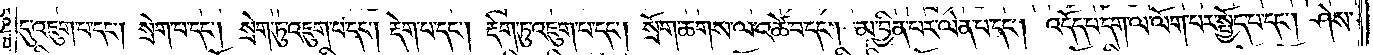དུ་འཇུག་པ་དང༌། སྲེག་པ་དང༌། སྲེག་ཏུ་འཇུག་པ་དང༌། རྡེག་པ་དང༌། རྡེག་ཏུ་འཇུག་པ་དང༌། སྲོག་ཆགས་ལ་འཚེ་བ་དང༌། མ་བྱིན་པར་ལེན་པ་དང༌། འདོད་པ་དག་ལ་ལོག་པར་སྤྱོད་པ་དང༌། ཤེས་
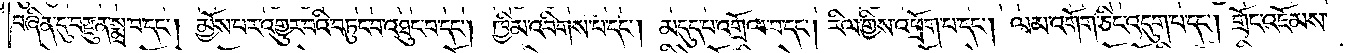བཞིན་དུ་བརྫུན་སྨྲ་བ་དང༌། མྱོས་པར་འགྱུར་བའི་བཏུང་བ་འཐུང་བ་དང༌། ཁྱིམ་འབིགས་པ་དང༌། མདུད་པ་འགྲོལ་བ་དང༌། རིལ་གྱིས་འཕྲོག་པ་དང༌། ལམ་འགོག་ཅིང་འདུག་པ་དང༌། གྲོང་འཇོམས་
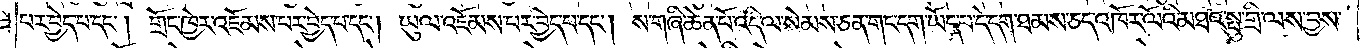པར་བྱེད་པ་དང༌། གྲོང་ཁྱེར་འཇོམས་པར་བྱེད་པ་དང༌། ཡུལ་འཇོམས་པར་བྱེད་པ་དང༌། ས་གཞི་ཆེན་པོ་འདི་ལ་སེམས་ཅན་གང་དག་ཡོད་པ་དེ་དག་ཐམས་ཅད་འཁོར་ལོའི་མཐའ་སྤུ་གྲི་ལས་བྱས་
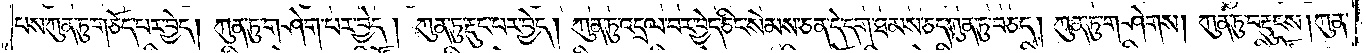པས་ཀུན་ཏུ་གཅོད་པར་བྱེད། ཀུན་ཏུ་གཤེག་པར་བྱེད། ཀུན་ཏུ་རྡུང་པར་བྱེད། ཀུན་ཏུ་འདྲལ་བར་བྱེད་ཅིང་སེམས་ཅན་དེ་དག་ཐམས་ཅད་ཀུན་ཏུ་བཅད། ཀུན་ཏུ་གཤེགས། ཀུན་ཏུ་བརྡུངས། ཀུན་
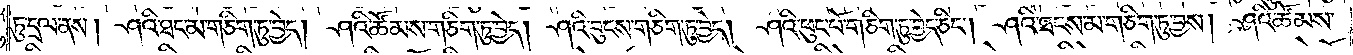ཏུ་དྲལ་ནས། ཤའི་ཐང་མ་གཅིག་ཏུ་བྱེད། ཤའི་ཚོམས་གཅིག་ཏུ་བྱེད། ཤའི་བུངས་གཅིག་ཏུ་བྱེད། ཤའི་ཕུང་པོ་གཅིག་ཏུ་བྱེད་ཅིང༌། ཤའི་ཐངས་མ་གཅིག་ཏུ་བྱས། ཤའི་ཚོམས་
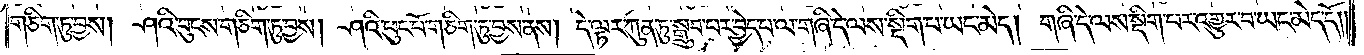གཅིག་ཏུ་བྱས། ཤའི་བུངས་གཅིག་ཏུ་བྱས། ཤའི་ཕུང་པོ་གཅིག་ཏུ་བྱས་ནས། དེ་ལྟར་ཀུན་ཏུ་སྒྲུབ་པར་བྱེད་པ་ལ་གཞི་དེ་ལས་སྡིག་པ་ཡང་མེད། གཞི་དེ་ལས་སྡིག་པར་འགྱུར་བ་ཡང་མེད་དོ། །
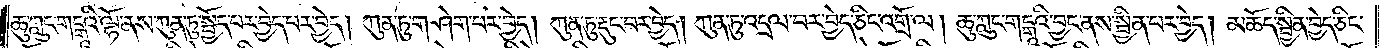ཆུ་ཀླུང་གངྒཱའི་ལྷོ་ནས་ཀུན་ཏུ་སྤྱོད་པར་བྱེད་པར་བྱེད། ཀུན་ཏུ་གཤེག་པར་བྱེད། ཀུན་ཏུ་རྡུང་བར་བྱེད། ཀུན་ཏུ་འདྲལ་བར་བྱེད་ཅིང་འགྲོ་ལ། ཆུ་ཀླུང་གངྒཱའི་བྱང་ནས་སྦྱིན་པར་བྱེད། མཆོད་སྦྱིན་བྱེད་ཅིང་
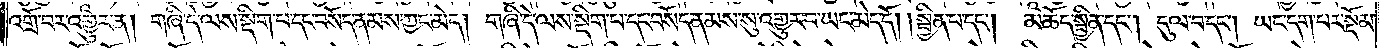འགྲོ་བར་འགྱུར་ན། གཞི་དེ་ལས་སྡིག་པ་དང་བསོད་ནམས་ཀྱང་མེད། གཞི་དེ་ལས་སྡིག་པ་དང་བསོད་ནམས་སུ་འགྱུར་བ་ཡང་མེད་དོ། ། སྦྱིན་པ་དང༌། མཆོད་སྦྱིན་དང༌། དུལ་བ་དང༌། ཡང་དག་པར་སྡོམ་
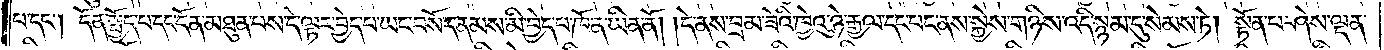པ་དང༌། དོན་སྤྱོད་པ་དང་དོན་མཐུན་པས་དེ་ལྟར་བྱེད་པ་ཡང་བསོད་ནམས་མི་བྱེད་པ་ཁོ་ན་ཡིན་ནོ། །དེ་ནས་བྲམ་ཟེའི་ཁྱེའུ་ཉེ་རྒྱལ་དང་པང་ནས་སྐྱེས་གཉིས་འདི་སྙམ་དུ་སེམས་ཏེ། སྟོན་པ་ཤེས་ལྡན་
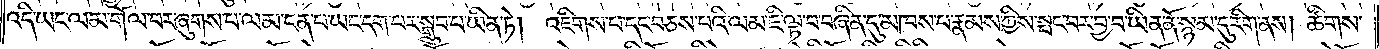འདི་ཡང་ལམ་གོལ་བར་ཞུགས་པ་ལམ་ངན་པ་ཡང་དག་པར་སྒྲུབ་པ་ཡིན་ཏེ། འཇིགས་པ་དང་བཅས་པའི་ལམ་ཇི་ལྟ་བ་བཞིན་དུ་མཁས་པ་རྣམས་ཀྱིས་སྤང་བར་བྱ་བ་ཡིན་ནོ་སྙམ་དུ་རིག་ནས། ཚིགས་
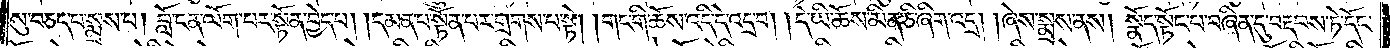སུ་བཅད་པ་སྨྲས་པ། བློ་ངན་ལོག་པར་སྟོན་བྱེད་པ། །དམན་པ་སྟོན་པར་གྲགས་པ་སྟེ། །གང་གི་ཆོས་འདི་དེ་འདྲ་བ། །དེ་ཡི་ཆོས་མིན་ཅི་ཞིག་འདྲ། །ཞེས་སྨྲས་ནས། སྣོད་སྟོང་པ་བཞིན་དུ་བརྡབས་ཏེ་དོང་
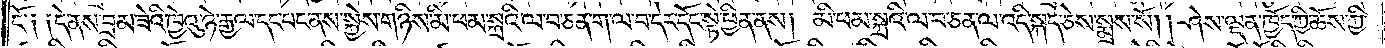ངོ༑ ༑དེ་ནས་བྲམ་ཟེའི་ཁྱེའུ་ཉེ་རྒྱལ་དང་པང་ནས་སྐྱེས་གཉིས་མི་ཕམ་སྐྲའི་ལ་བ་ཅན་ག་ལ་བ་དེར་དོང་སྟེ་ཕྱིན་ནས། མི་ཕམ་སྐྲའི་ལ་བ་ཅན་ལ་འདི་སྐད་ཅེས་སྨྲས་སོ། །ཤེས་ལྡན་ཁྱོད་ཀྱི་ཆོས་ཀྱི་
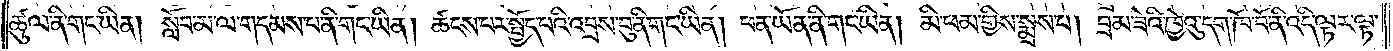ཚུལ་ནི་གང་ཡིན། སློབ་མ་ལ་གདམས་པ་ནི་གང་ཡིན། ཚངས་པར་སྤྱོད་པའི་འབྲས་བུ་ནི་གང་ཡིན། ཕན་ཡོན་ནི་གང་ཡིན། མི་ཕམ་གྱིས་སྨྲས་པ། བྲམ་ཟེའི་བྱེའུ་དག་ཁོ་བོ་ནི་འདི་ལྟར་ལྟ་
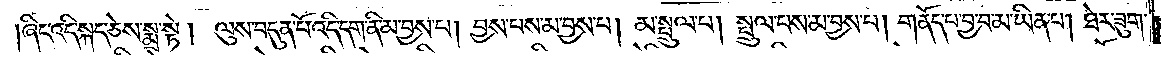ཞིང་འདི་སྐད་ཅེས་སྨྲ་སྟེ། ལུས་བདུན་པོ་འདི་དག་ནི་མ་བྱས་པ། བྱས་པས་མ་བྱས་པ། མ་སྤྲུལ་པ། སྤྲུལ་པས་མ་བྱས་པ། གནོད་པ་བྱ་བ་མ་ཡིན་པ། ཐེར་ཟུག་
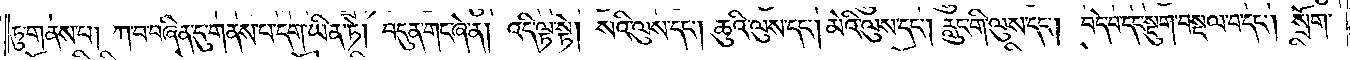ཏུ་གནས་པ། ཀ་བ་བཞིན་དུ་གནས་པ་དག་ཡིན་ཏེ། བདུན་གང་ཞེ་ན། འདི་ལྟ་སྟེ། སའི་ལུས་དང༌། ཆུའི་ལུས་དང༌། མེའི་ལུས་དང༌། རླུང་གི་ལུས་དང༌། བདེ་བ་དང་སྡུག་བསྔལ་བ་དང༌། སྲོག་
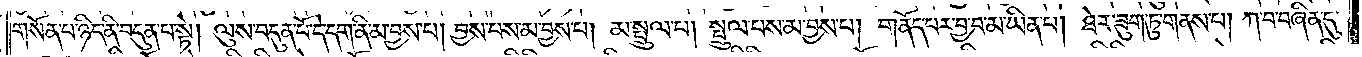གསོན་པ་ཉིད་ནི་བདུན་པ་སྟེ། ལུས་བདུན་པོ་དེ་དག་ནི་མ་བྱས་པ། བྱས་པས་མ་བྱས་པ། མ་སྤྲུལ་པ། སྤྲུལ་པས་མ་བྱས་པ། གནོད་པར་བྱ་བ་མ་ཡིན་པ། ཐེར་ཟུག་ཏུ་གནས་པ། ཀ་བ་བཞིན་དུ་
